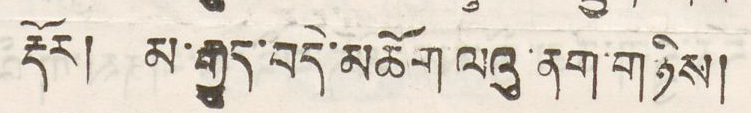རྡོར། མ་རྒྱུད་བདེ་མཆོག ལའུ་ནག་གཉིས།
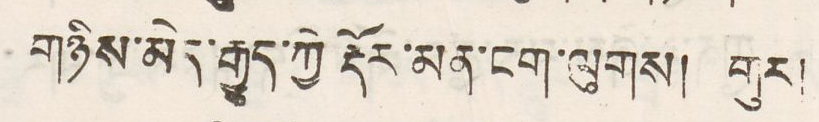གཉིས་མེད་རྒྱུད་ཀྱེ རྡོར་མན་ངག་ལུགས། གུར།
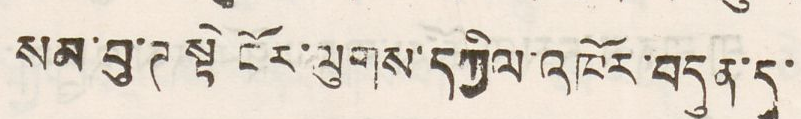སམ་བུ་ཊ ངོར་ལུགས་དཀྱིལ་འཁོར་བདུན་དུ་
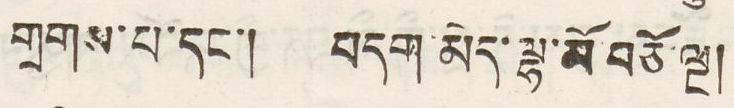གྲགས་པ་དང་། བདག་མེད་ལྷ་མོ་བཅོ་ལྔ།
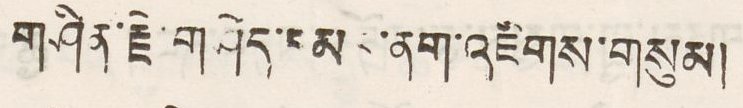གཤིན་རྗེ་གཤེད་མང་ནག་འཇིགས་གསུམ།
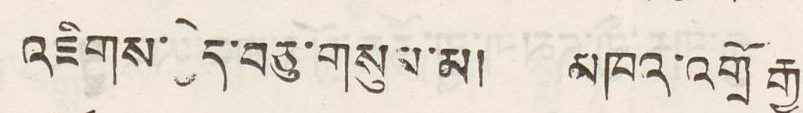འཇིགས་བྱེད་བཅུ་གསུམ་མ། མཁའ་འགྲོ རྒྱ
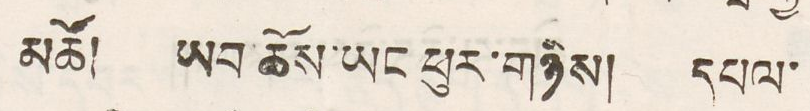མཚོ། ཡབ་ཆོས་ཡང ཕུར་གཉིས། དཔལ་
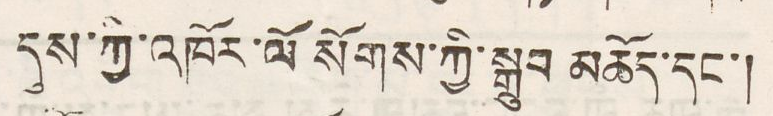དུས་ཀྱི་འཁོར་ལོ སོགས་ཀྱི་སྒྲུབ མཆོད་དང་།
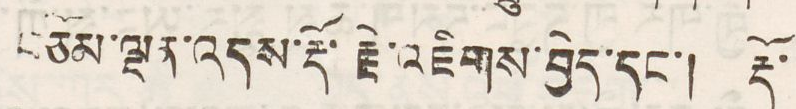བཅོམ་ལྡན་འདས་རྡོ་རྗེ་འཇིགས་བྱེད་དང་། རྡོ་
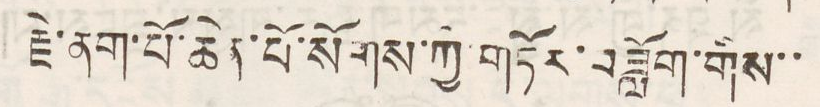རྗེ་ནག་པོ་ཆེན་པོ་སོགས་ཀྱི་གཏོར་བཟློག་གིས་་
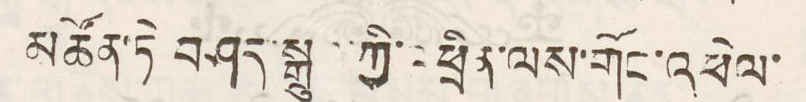མཚོན་ཏེ བཤད་སྒྲུབ་ཀྱི་འཕྲིན་ལས་གོང་འཕེལ་
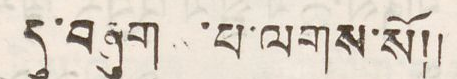དུ་བཞུགས་པ་ལགས་སོ།།
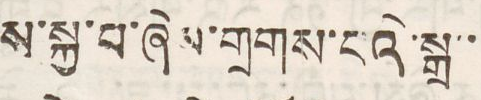ས་སྐྱ་པ་ཞེས་གྲགས་པའི་སྒྲ་་
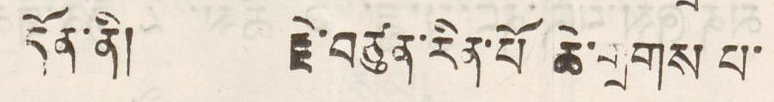དོན་ནི། རྗེ་བཙུན་རིན་པོ ཆེ་གྲགས པ་
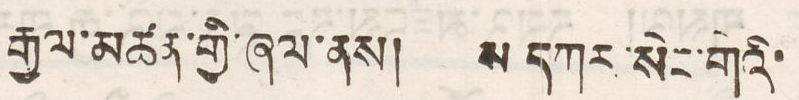རྒྱལ་མཚན་གྱི་ཞལ་ནས། ས དཀར་སེང་གེའི་
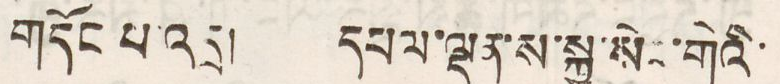གདོང་པ་འདྲ། དཔལ་ལྡན་ས་སྐྱ་སེང་གེའི་
